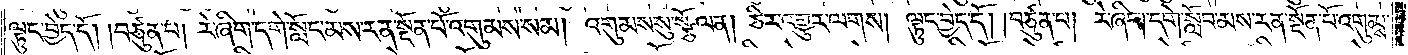ལྟུང་བྱེད་དོ། །བཙུན་པ། རེ་ཞིག་དགེ་སློང་མས་རན་སྔོན་པོ་འགུམས་སམ། འགུམས་སུ་སྩོལ་ན། ཅིར་འགྱུར་ལགས། ལྟུང་བྱེད་དོ། །བཙུན་པ། རེ་ཞིག་དགེ་སློབ་མས་རན་སྔོན་པོ་འགུམས་
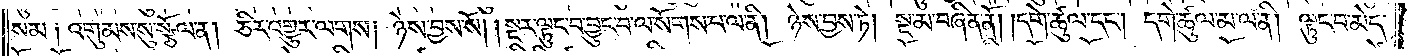སམ༑ འགུམས་སུ་སྩོལ་ན། ཅིར་འགྱུར་ལགས། ཉེས་བྱས་སོ། །སྔར་ལྟུང་བ་བྱུང་བ་ལ་སོགས་པ་ལ་ནི། ཉེས་བྱས་ཏེ། སྔ་མ་བཞིན་ནོ། །དགེ་ཚུལ་དང༌། དགེ་ཚུལ་མ་ལ་ནི། ལྟུང་བ་མེད་
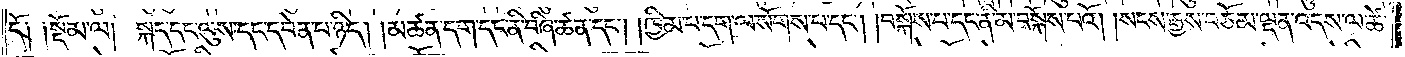ངོ་༑    ༑སྡོམ་ལ། སྐད་དང་ལུས་དང་དབེན་པ་ཉིད། །མཚན་དག་དང་ནི་བཞི་ཚན་དང༌། །ཁྱིམ་པ་དག་ལ་སོགས་པ་དང༌། །བསྐོས་པ་དང་ནི་མ་བསྐོས་པའོ། །སངས་རྒྱས་བཅོམ་ལྡན་འདས་ལ་ཚེ་
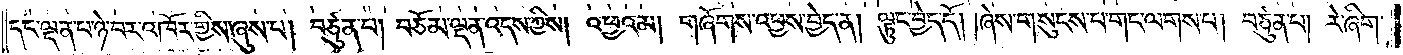དང་ལྡན་པ་ཉེ་བར་འཁོར་གྱིས་ཞུས་པ། བཙུན་པ། བཅོམ་ལྡན་འདས་ཀྱིས། འཕྱའམ། གཞོགས་འཕྱས་བྱེད་ན། ལྟུང་བྱེད་དོ། །ཞེས་གསུངས་པ་གང་ལགས་པ། བཙུན་པ། རེ་ཞིག་
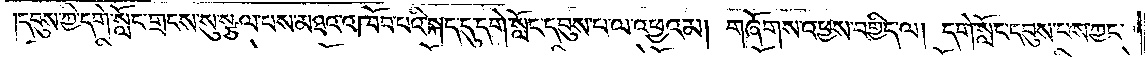དབུས་ཀྱི་དགེ་སློང་གྲངས་སུ་སྩལ་པས་མཐའ་འཁོབ་པའི་སྐད་དུ་དགེ་སློང་དབུས་པ་ལ་འཕྱའམ། གཞོགས་འཕྱས་བགྱིད་ལ། དགེ་སློང་དབུས་པས་ཀྱང་
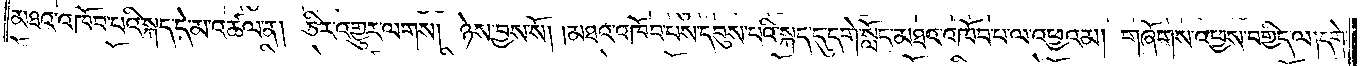མཐའ་འཁོབ་པའི་སྐད་དེ་མ་འཚལ་ན། ཅིར་འགྱུར་ལགས། ཉེས་བྱས་སོ། །མཐའ་འཁོབ་པས་དབུས་པའི་སྐད་དུ་དགེ་སློང་མཐའ་འཁོབ་པ་ལ་འཕྱའམ། གཞོགས་འཕྱས་བགྱིད་ལ། དགེ་
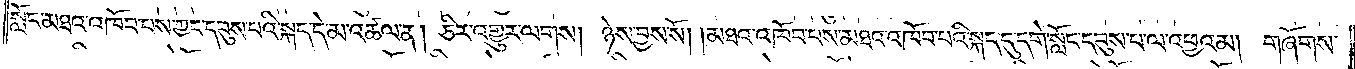སློང་མཐའ་འཁོབ་པས་ཀྱང་དབུས་པའི་སྐད་དེ་མ་འཚལ་ན། ཅིར་འགྱུར་ལགས། ཉེས་བྱས་སོ། །མཐའ་འཁོབ་པས་མཐའ་འཁོབ་པའི་སྐད་དུ་དགེ་སློང་དབུས་པ་ལ་འཕྱའམ། གཞོགས་
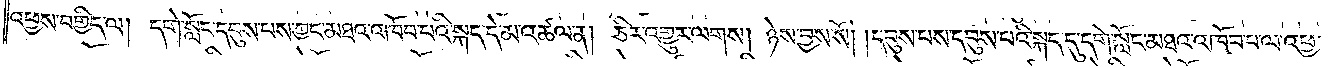འཕྱས་བགྱིད་ལ། དགེ་སློང་དབུས་པས་ཀྱང་མཐའ་འཁོབ་པའི་སྐད་དེ་མ་འཚལ་ན། ཅིར་འགྱུར་ལགས། ཉེས་བྱས་སོ། །དབུས་པས་དབུས་པའི་སྐད་དུ་དགེ་སློང་མཐའ་འཁོབ་པ་ལ་འཕྱ་
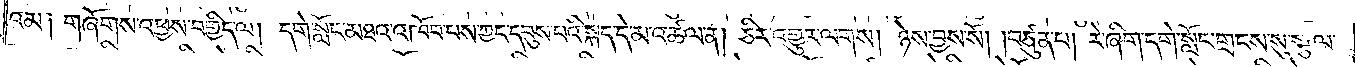འམ༑ གཞོགས་འཕྱས་བགྱིད་ལ། དགེ་སློང་མཐའ་འཁོབ་པས་ཀྱང་དབུས་པའི་སྐད་དེ་མ་འཚལ་ན། ཅིར་འགྱུར་ལགས། ཉེས་བྱས་སོ། །བཙུན་པ། རེ་ཞིག་དགེ་སློང་གྲངས་སུ་སྩལ་
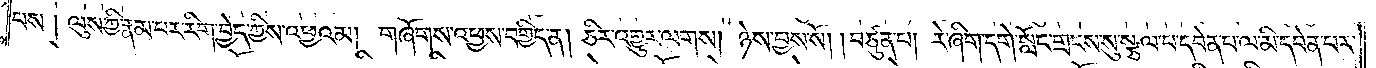པས། ལུས་ཀྱི་རྣམ་པར་རིག་བྱེད་ཀྱིས་འཕྱའམ། གཞོགས་འཕྱས་བགྱིད་ན། ཅིར་འགྱུར་ལགས། ཉེས་བྱས་སོ། །བཙུན་པ། རེ་ཞིག་དགེ་སློང་གྲངས་སུ་སྩལ་པ་དབེན་པ་ལ་མི་དབེན་པར་
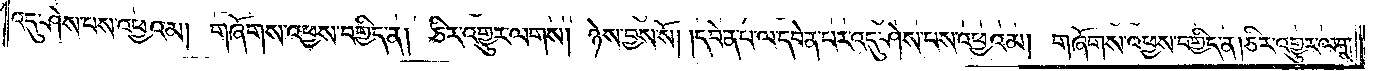འདུ་ཤེས་པས་འཕྱའམ། གཞོགས་འཕྱས་བགྱིད་ན། ཅིར་འགྱུར་ལགས། ཉེས་བྱས་སོ། །དབེན་པ་ལ་དབེན་པར་འདུ་ཤེས་པས་འཕྱའམ། གཞོགས་འཕྱས་བགྱིད་ན། ཅིར་འགྱུར་ལགས་
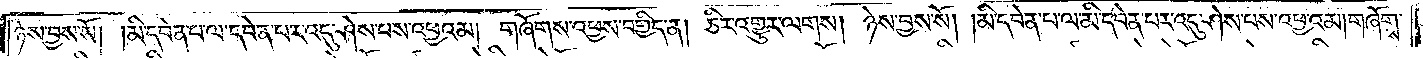ཉེས་བྱས་སོ། །མི་དབེན་པ་ལ་དབེན་པར་འདུ་ཤེས་པས་འཕྱའམ། གཞོགས་འཕྱས་བགྱིད་ན། ཅིར་འགྱུར་ལགས། ཉེས་བྱས་སོ། །མི་དབེན་པ་ལ་མི་དབེན་པར་འདུ་ཤེས་པས་འཕྱའམ། གཞོགས་
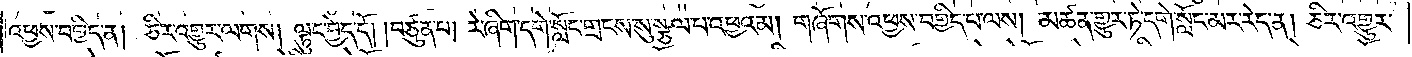འཕྱས་བགྱིད་ན། ཅིར་འགྱུར་ལགས། ལྟུང་བྱེད་དོ། །བཙུན་པ། རེ་ཞིག་དགེ་སློང་གྲངས་སུ་སྩལ་པ་འཕྱའམ། གཞོགས་འཕྱས་བགྱིད་པ་ལས། མཚན་གྱུར་ཏེ་དགེ་སློང་མར་རེད་ན། ཅིར་འགྱུར་
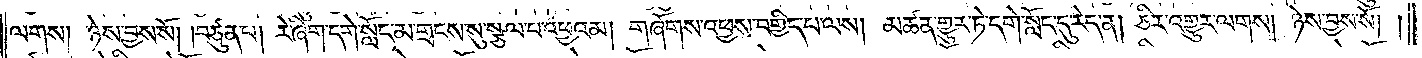ལགས། ཉེས་བྱས་སོ། །བཙུན་པ། རེ་ཞིག་དགེ་སློང་མ་གྲངས་སུ་སྩལ་པ་འཕྱའམ། གཞོགས་འཕྱས་བགྱིད་པ་ལས། མཚན་གྱུར་ཏེ་དགེ་སློང་དུ་རེད་ན། ཅིར་འགྱུར་ལགས། ཉེས་བྱས་སོ། །
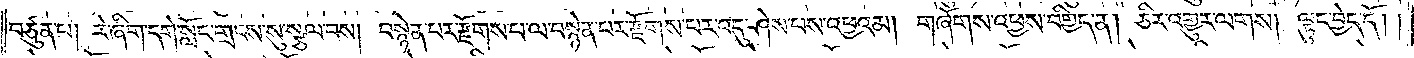བཙུན་པ། རེ་ཞིག་དགེ་སློང་གྲངས་སུ་སྩལ་བས། བསྙེན་པར་རྫོགས་པ་ལ་བསྙེན་པར་རྫོགས་པར་འདུ་ཤེས་པས་འཕྱའམ། གཞོགས་འཕྱས་བགྱིད་ན། ཅིར་འགྱུར་ལགས། ལྟུང་བྱེད་དོ། །
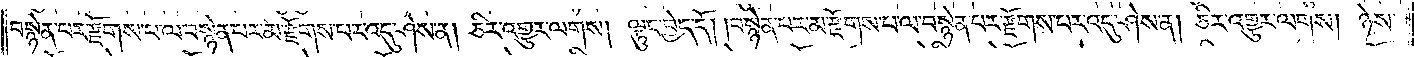བསྙེན་པར་རྫོགས་པ་ལ་བསྙེན་པར་མ་རྫོགས་པར་འདུ་ཤེས་ན། ཅིར་འགྱུར་ལགས། ལྟུང་བྱེད་དོ། །བསྙེན་པར་མ་རྫོགས་པ་ལ་བསྙེན་པར་རྫོགས་པར་འདུ་ཤེས་ན། ཅིར་འགྱུར་ལགས། ཉེས་
